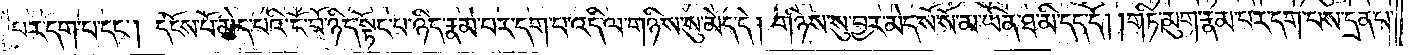པར་དག་པ་དང༌། དངོས་པོ་མེད་པའི་ངོ་བོ་ཉིད་སྟོང་པ་ཉིད་རྣམ་པར་དག་པ་འདི་ལ་གཉིས་སུ་མེད་དེ། གཉིས་སུ་བྱར་མེད་སོ་སོ་མ་ཡིན་ཐ་མི་དད་དོ། །གཏི་མུག་རྣམ་པར་དག་པས་དྲན་པ་
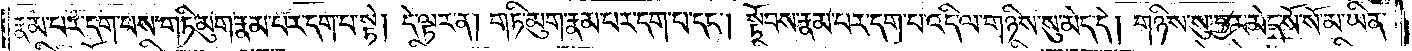རྣམ་པར་དག་པས་གཏི་མུག་རྣམ་པར་དག་པ་སྟེ། དེ་ལྟར་ན། གཏི་མུག་རྣམ་པར་དག་པ་དང༌། སྟོབས་རྣམ་པར་དག་པ་འདི་ལ་གཉིས་སུ་མེད་དེ། གཉིས་སུ་བྱར་མེད་སོ་སོ་མ་ཡིན་
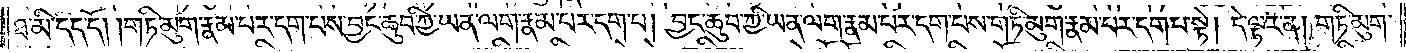ཐ་མི་དད་དོ། །གཏི་མུག་རྣམ་པར་དག་པས་བྱང་ཆུབ་ཀྱི་ཡན་ལག་རྣམ་པར་དག་པ། བྱང་ཆུབ་ཀྱི་ཡན་ལག་རྣམ་པར་དག་པས་གཏི་མུག་རྣམ་པར་དག་པ་སྟེ། དེ་ལྟར་ན། གཏི་མུག་
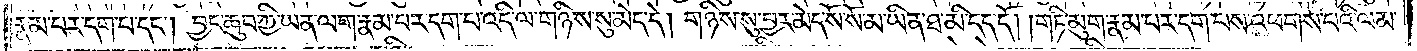རྣམ་པར་དག་པ་དང༌། བྱང་ཆུབ་ཀྱི་ཡན་ལག་རྣམ་པར་དག་པ་འདི་ལ་གཉིས་སུ་མེད་དེ། གཉིས་སུ་བྱར་མེད་སོ་སོ་མ་ཡིན་ཐ་མི་དད་དོ། །གཏི་མུག་རྣམ་པར་དག་པས་འཕགས་པའི་ལམ་
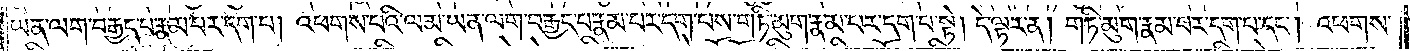ཡན་ལག་བརྒྱད་པ་རྣམ་པར་དག་པ། འཕགས་པའི་ལམ་ཡན་ལག་བརྒྱད་པ་རྣམ་པར་དག་པས་གཏི་མུག་རྣམ་པར་དག་པ་སྟེ། དེ་ལྟར་ན། གཏི་མུག་རྣམ་པར་དག་པ་དང༌། འཕགས་
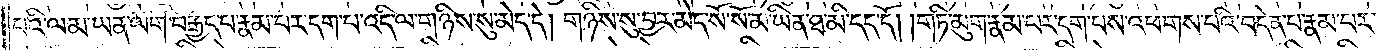པའི་ལམ་ཡན་ལག་བརྒྱད་པ་རྣམ་པར་དག་པ་འདི་ལ་གཉིས་སུ་མེད་དེ། གཉིས་སུ་བྱར་མེད་སོ་སོ་མ་ཡིན་ཐ་མི་དད་དོ། །གཏི་མུག་རྣམ་པར་དག་པས་འཕགས་པའི་བདེན་པ་རྣམ་པར་
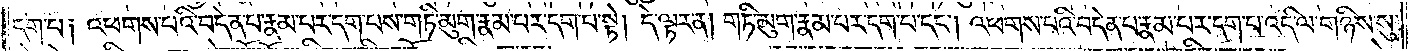དག་པ༑ འཕགས་པའི་བདེན་པ་རྣམ་པར་དག་པས་གཏི་མུག་རྣམ་པར་དག་པ་སྟེ། དེ་ལྟར་ན། གཏི་མུག་རྣམ་པར་དག་པ་དང༌། འཕགས་པའི་བདེན་པ་རྣམ་པར་དག་པ་འདི་ལ་གཉིས་སུ་
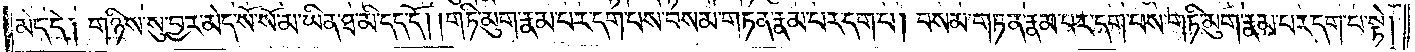མེད་དེ༑ གཉིས་སུ་བྱར་མེད་སོ་སོ་མ་ཡིན་ཐ་མི་དད་དོ། །གཏི་མུག་རྣམ་པར་དག་པས་བསམ་གཏན་རྣམ་པར་དག་པ། བསམ་གཏན་རྣམ་པར་དག་པས་གཏི་མུག་རྣམ་པར་དག་པ་སྟེ།
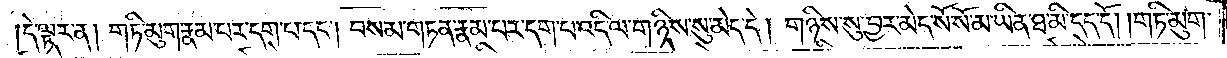དེ་ལྟར་ན། གཏི་མུག་རྣམ་པར་དག་པ་དང༌། བསམ་གཏན་རྣམ་པར་དག་པ་འདི་ལ་གཉིས་སུ་མེད་དེ། གཉིས་སུ་བྱར་མེད་སོ་སོ་མ་ཡིན་ཐ་མི་དད་དོ། །གཏི་མུག་
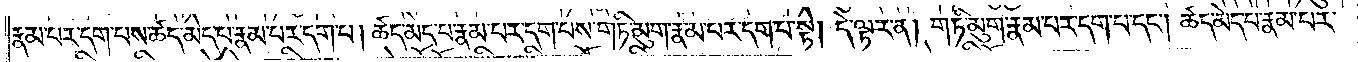རྣམ་པར་དག་པས་ཚད་མེད་པ་རྣམ་པར་དག་པ། ཚད་མེད་པ་རྣམ་པར་དག་པས་གཏི་མུག་རྣམ་པར་དག་པ་སྟེ། དེ་ལྟར་ན། གཏི་མུག་རྣམ་པར་དག་པ་དང༌། ཚད་མེད་པ་རྣམ་པར་
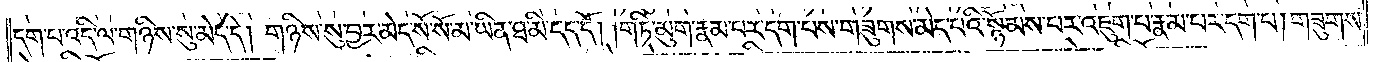དག་པ་འདི་ལ་གཉིས་སུ་མེད་དེ། གཉིས་སུ་བྱར་མེད་སོ་སོ་མ་ཡིན་ཐ་མི་དད་དོ། །གཏི་མུག་རྣམ་པར་དག་པས་གཟུགས་མེད་པའི་སྙོམས་པར་འཇུག་པ་རྣམ་པར་དག་པ། གཟུགས་
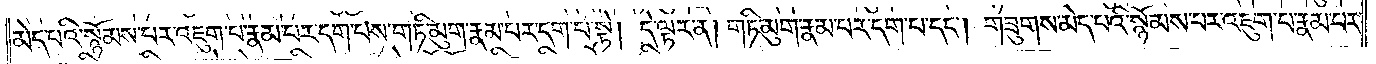མེད་པའི་སྙོམས་པར་འཇུག་པ་རྣམ་པར་དག་པས་གཏི་མུག་རྣམ་པར་དག་པ་སྟེ། དེ་ལྟར་ན། གཏི་མུག་རྣམ་པར་དག་པ་དང༌། གཟུགས་མེད་པའི་སྙོམས་པར་འཇུག་པ་རྣམ་པར་
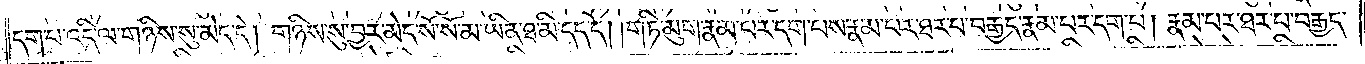དག་པ་འདི་ལ་གཉིས་སུ་མེད་དེ། གཉིས་སུ་བྱར་མེད་སོ་སོ་མ་ཡིན་ཐ་མི་དད་དོ། །གཏི་མུག་རྣམ་པར་དག་པས་རྣམ་པར་ཐར་པ་བརྒྱད་རྣམ་པར་དག་པ། རྣམ་པར་ཐར་པ་བརྒྱད་
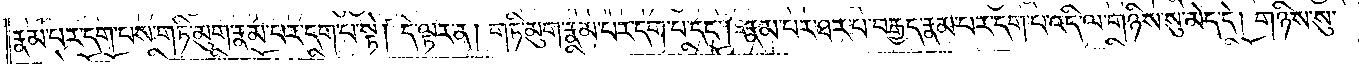རྣམ་པར་དག་པས་གཏི་མུག་རྣམ་པར་དག་པ་སྟེ། དེ་ལྟར་ན། གཏི་མུག་རྣམ་པར་དག་པ་དང༌། རྣམ་པར་ཐར་པ་བརྒྱད་རྣམ་པར་དག་པ་འདི་ལ་གཉིས་སུ་མེད་དེ། གཉིས་སུ་
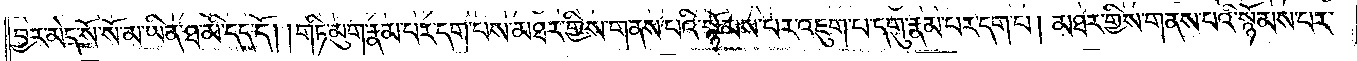བྱར་མེད་སོ་སོ་མ་ཡིན་ཐ་མི་དད་དོ། །གཏི་མུག་རྣམ་པར་དག་པས་མཐར་གྱིས་གནས་པའི་སྙོམས་པར་འཇུག་པ་དགུ་རྣམ་པར་དག་པ། མཐར་གྱིས་གནས་པའི་སྙོམས་པར་
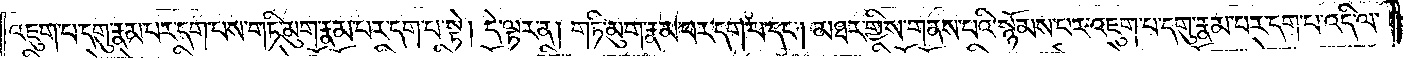འཇུག་པ་དགུ་རྣམ་པར་དག་པས་གཏི་མུག་རྣམ་པར་དག་པ་སྟེ། དེ་ལྟར་ན། གཏི་མུག་རྣམ་པར་དག་པ་དང༌། མཐར་གྱིས་གནས་པའི་སྙོམས་པར་འཇུག་པ་དགུ་རྣམ་པར་དག་པ་འདི་ལ་
